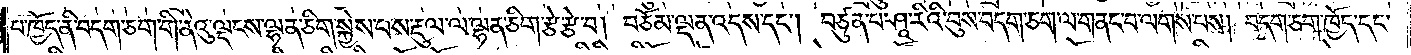པ་ཁྱོད་ནི་བདག་ཅག་གི་ནེའུ་ལྡངས་ལྷན་ཅིག་སྐྱེས་པས་རྡུལ་ལ་ལྷན་ཅིག་རྩེ་རྩེ་བ། བཅོམ་ལྡན་འདས་དང༌། བཙུན་པ་ཤཱ་རིའི་བུས་བདག་ཅག་ལ་གནང་བ་ལགས་པས། བདག་ཅག་ཁྱོད་དང་
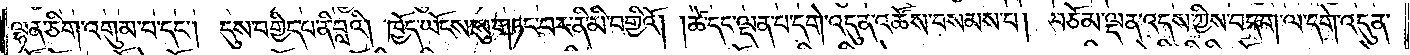ལྷན་ཅིག་འགུམ་པ་དང༌། དུས་བགྱིད་པ་ནི་བླའི། ཁྱོད་ཡོངས་སུ་གཏང་བར་ནི་མི་བགྱིའོ། །ཚེ་དང་ལྡན་པ་དགེ་འདུན་འཚོས་བསམས་པ། བཅོམ་ལྡན་འདས་ཀྱིས་བདག་ལ་དགེ་འདུན་
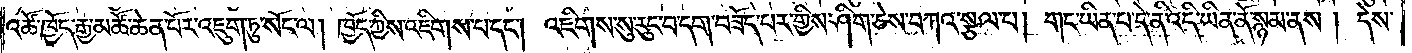འཚོ་ཁྱོད་རྒྱ་མཚོ་ཆེན་པོར་འཇུག་ཏུ་སོང་ལ། ཁྱོད་ཀྱིས་འཇིགས་པ་དང༌། འཇིགས་སུ་རུང་བ་དག་བཟོད་པར་གྱིས་ཤིག་ཅེས་བཀའ་སྩལ་པ། གང་ཡིན་པ་དེ་ནི་འདི་ཡིན་ནོ་སྙམ་ནས། དེས་
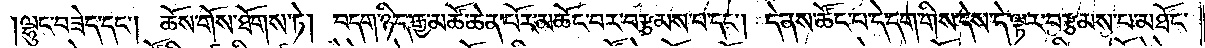ལྷུང་བཟེད་དང༌། ཆོས་གོས་ཐོགས་ཏེ། བདག་ཉིད་རྒྱ་མཚོ་ཆེན་པོར་མཆོང་བར་བརྩམས་པ་དང༌། དེ་ནས་ཚོང་པ་དེ་དག་གིས་དེས་དེ་ལྟར་བརྩམས་པ་མཐོང་
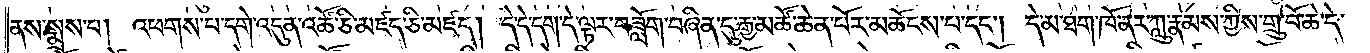ནས་སྨྲས་པ། འཕགས་པ་དགེ་འདུན་འཚོ་ཅི་མཛད་ཅི་མཛད། དེ་དེ་དག་དེ་ལྟར་བཟློག་བཞིན་དུ་རྒྱ་མཚོ་ཆེན་པོར་མཆོངས་པ་དང༌། དེ་མ་ཐག་ཁོ་ནར་ཀླུ་རྣམས་ཀྱིས་གྲུ་བོ་ཆེ་དེ་
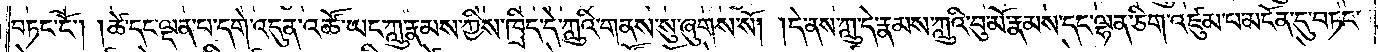བཏང་ངོ༌། །ཚེ་དང་ལྡན་པ་དགེ་འདུན་འཚོ་ཡང་ཀླུ་རྣམས་ཀྱིས་ཁྲིད་དེ་ཀླུའི་གནས་སུ་ཞུགས་སོ། །དེ་ནས་ཀླུ་དེ་རྣམས་ཀླུའི་བུ་མོ་རྣམས་དང་ལྷན་ཅིག་འཛུམ་པ་མངོན་དུ་བཏང་
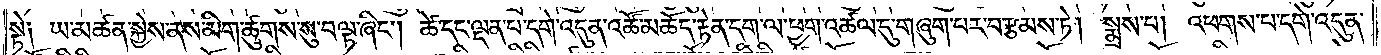སྟེ༑ ཡ་མཚན་སྐྱེས་ནས་མིག་ཚུགས་སུ་བལྟ་ཞིང༌། ཚེ་དང་ལྡན་པ་དགེ་འདུན་འཚོ་མཆོད་རྟེན་དག་ལ་ཕྱག་འཚལ་དུ་གཞུག་པར་བརྩམས་ཏེ། སྨྲས་པ། འཕགས་པ་དགེ་འདུན་
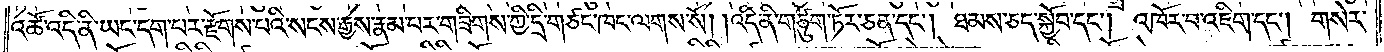འཚོ་འདི་ནི་ཡང་དག་པར་རྫོགས་པའི་སངས་རྒྱས་རྣམ་པར་གཟིགས་ཀྱི་དྲི་གཙང་ཁང་ལགས་སོ། །འདི་ནི་གཙུག་ཏོར་ཅན་དང༌། ཐམས་ཅད་སྐྱོབ་དང༌། འཁོར་བ་འཇིག་དང༌། གསེར་
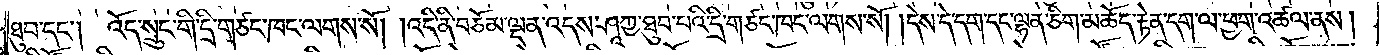ཐུབ་དང༌། འོད་སྲུང་གི་དྲི་གཙང་ཁང་ལགས་སོ། །འདི་ནི་བཅོམ་ལྡན་འདས་ཤཱཀྱ་ཐུབ་པའི་དྲི་གཙང་ཁང་ལགས་སོ། །དེས་དེ་དག་དང་ལྷན་ཅིག་མཆོད་རྟེན་དག་ལ་ཕྱག་འཚལ་ནས།
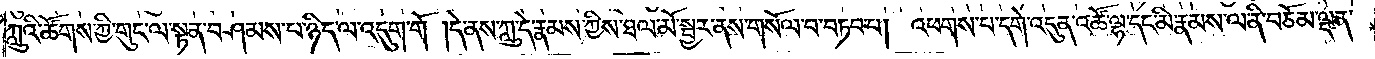ཀླུའི་ཚོགས་ཀྱི་གུང་ལ་སྟན་བཤམས་པ་ཉིད་ལ་འདུག་གོ །དེ་ནས་ཀླུ་དེ་རྣམས་ཀྱིས་ཐལ་མོ་སྦྱར་ནས་གསོལ་བ་བཏབ་པ། འཕགས་པ་དགེ་འདུན་འཚོ་ལྷ་དང་མི་རྣམས་ལ་ནི་བཅོམ་ལྡན་
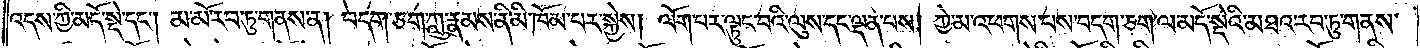འདས་ཀྱི་མདོ་སྡེ་དང༌། མ་མོ་རབ་ཏུ་གནས་ན། བདག་ཅག་ཀླུ་རྣམས་ནི་མི་ཁོམ་པར་སྐྱེས། ལོག་པར་ལྟུང་བའི་ལུས་དང་ལྡན་པས། ཀྱེ་མ་འཕགས་པས་བདག་ཅག་ལ་མདོ་སྡེའི་མཐའ་རབ་ཏུ་གནས་
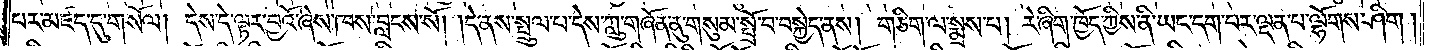པར་མཛད་དུ་གསོལ། དེས་དེ་ལྟར་བྱའོ་ཞེས་ཁས་བླངས་སོ། །དེ་ནས་སྤྲུལ་པ་དེས་ཀླུ་གཞོན་ནུ་གསུམ་སྤྲོ་བ་བསྐྱེད་ནས། གཅིག་ལ་སྨྲས་པ། རེ་ཞིག་ཁྱོད་ཀྱིས་ནི་ཡང་དག་པར་ལྡན་པ་ལྷོགས་ཤིག།
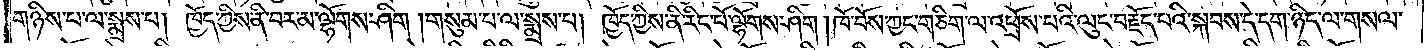གཉིས་པ་ལ་སྨྲས་པ། ཁྱོད་ཀྱིས་ནི་བར་མ་ལྷོགས་ཤིག །གསུམ་པ་ལ་སྨྲས་པ། ཁྱོད་ཀྱིས་ནི་རིང་པོ་ལྷོགས་ཤིག །ཁོ་བོས་ཀྱང་གཅིག་ལ་འཕྲོས་པའི་ལུང་བརྗོད་པའི་སྐབས་དེ་དག་ཉིད་ལ་གསལ་
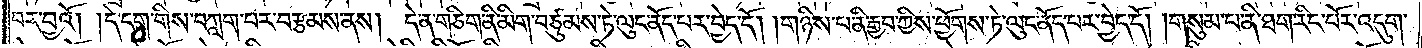བར་བྱའོ། །དེ་དག་གིས་བཀླག་པར་བརྩམས་ནས། དེ་ན་གཅིག་ནི་མིག་བཙུམས་ཏེ་ལུང་ནོད་པར་བྱེད་དོ། །གཉིས་པ་ནི་རྒྱབ་ཀྱིས་ཕྱོགས་ཏེ་ལུང་ནོད་པར་བྱེད་དོ། །གསུམ་པ་ནི་ཐག་རིང་པོར་འདུག་
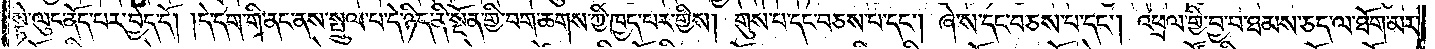སྟེ་ལུང་ནོད་པར་བྱེད་དོ། །དེ་དག་གི་ནང་ནས་སྤྲུལ་པ་དེ་ཉིད་ནི་སྔོན་གྱི་བག་ཆགས་ཀྱི་ཁྱད་པར་གྱིས། གུས་པ་དང་བཅས་པ་དང༌། ཞེ་ས་དང་བཅས་པ་དང༌། འཕྲལ་གྱི་བྱ་བ་ཐམས་ཅད་ལ་ཐོག་མར་
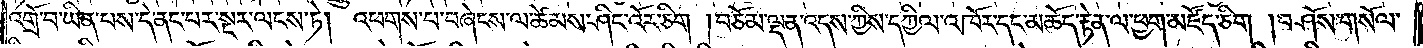འགྲོ་བ་ཡིན་པས་དེ་ནང་པར་སྔར་ལངས་ཏེ། འཕགས་པ་བཞེངས་ལ་ཚེམས་ཤིང་འོར་ཅིག །བཅོམ་ལྡན་འདས་ཀྱིས་དཀྱིལ་འཁོར་དང་མཆོད་རྟེན་ལ་ཕྱག་མཛོད་ཅིག །བཤོས་གསོལ་
